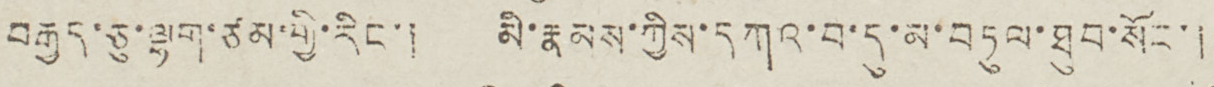བརྒྱད་ཅུ་ལྷག་ཙམ་གྱི་རིང་། མི་རྣམས་ཀྱིས་དཀའ་བ་དུ་མ་བཏུལ་ཐུབ་སོང་།
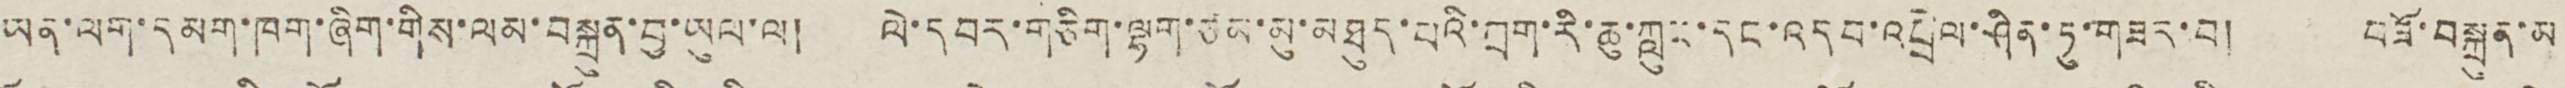ཡན་ལག་དམག་ཁག་ཞིག་གིས་ལམ་བསྐྲུན་བྱ་ཡུལ་ལ། ལེ་དབར་གཅིག་ལྷག་ཙམ་མུ་མཐུད་པའི་བྲག་རི་ཆུ་ཀླུང་དང་འདབ་འབྲེལ་ཤིན་ཏུ་གཟར་བ། བཟོ་བསྐྲུན་མ
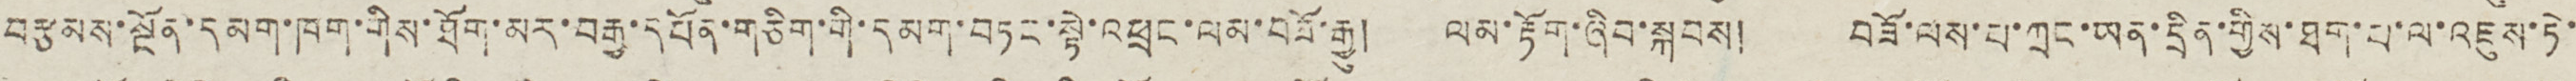བརྩམས་སྔོན་དམག་ཁག་གིས་ཐོག་མར་བརྒྱ་དཔོན་གཅིག་གི་དམག་བཏང་སྟེ་འཕྲང་ལམ་བཟོ་རྒྱུ། ལམ་རྟོག་ཞིབ་སྐབས། བཟོ་ལས་པ་ཀྲང་ཡན་དྲིན་གྱིས་ཐག་པ་ལ་འཇུས་ཏེ་
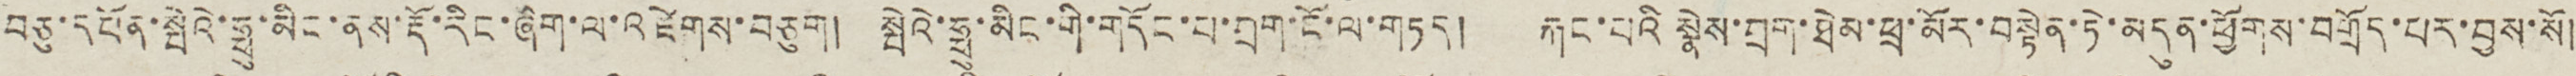བཅུ་དཔོན་སྤེའི་ཧྥུ་མིང་ནས་རྡོ་རིང་ཞིག་ལ་འཛེགས་བཅུག། སྤེའེ་ཧྥུ་མིང་གི་གདོང་པ་བྲག་ངོ་ལ་གཏད། རྐང་པའི སྣེས་བྲག་ཐེམ་ཕྲ་མོར་བསྟེན་ཏེ་མདུན་ཕྱོགས་བགྲོད་པར་བྱས་སོ།
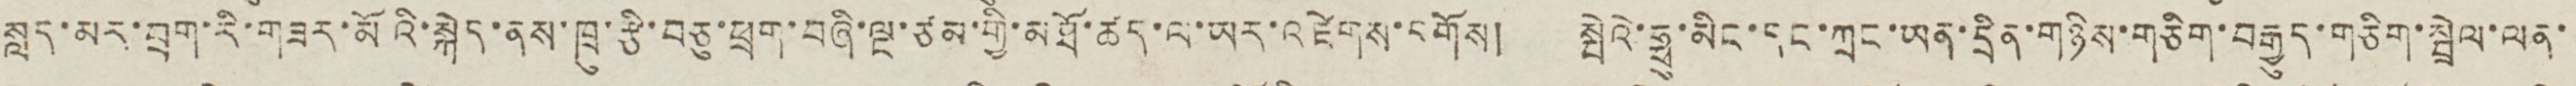སླད་མར་བྲག་རི་གཟེར་མོའི་སྐེད་ནས་ཁྲུ་རྩི་བཅུ་ཕྲག་བཞི་ལྔ་ཙམ་གྱི་མཐོ་ཚད་ལ་ཡར་འཛེགས་དགོས། སྤེའེ་ཧྥུ་མིང་དང་ཀྲང་ཡན་དྲིན་གཉིས་གཅིག་བརྒྱུད་གཅིག་སྦྲེལ་ལན་
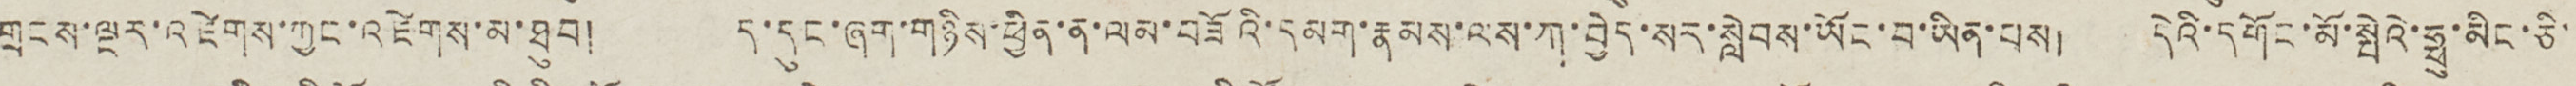གྲངས་ལྔར་འཛེགས་ཀྱང་འཛེགས་མ་ཐུབ། ད་དུང་ཞག་གཉིས་ཕྱིན་ན་ལམ་བཟོའི་དམག་རྣམས་ལས་ཀ་བྱེད་སར་སླེབས་ཡོང་བ་ཡིན་པས། དེའི་དགོང་མོ་སྤེའེ་ཧྥུ་མིང་ཅི་
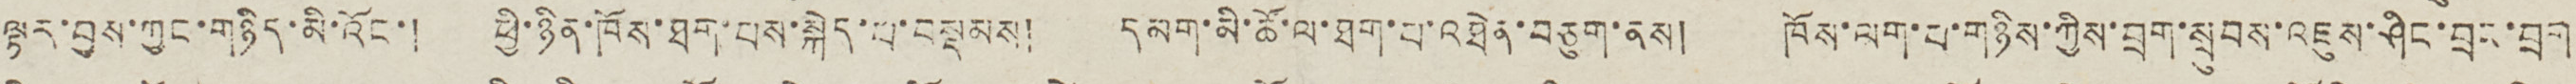ལྟར་བྱས་ཀྱང་གཉིད་མི་འོང་། ཕྱི་ཉིན་ཁོས་ཐག་པས་སྐེད་པ་བསྡམས། དམག་མི་ཚོ་ལ་ཐག་པ་འཐེན་བཅུག་ནས། ཁོས་ལག་པ་གཉིས་ཀྱིས་བྲག་སྲུབས་འཇུས་ཤིང་བྲང་བྲག
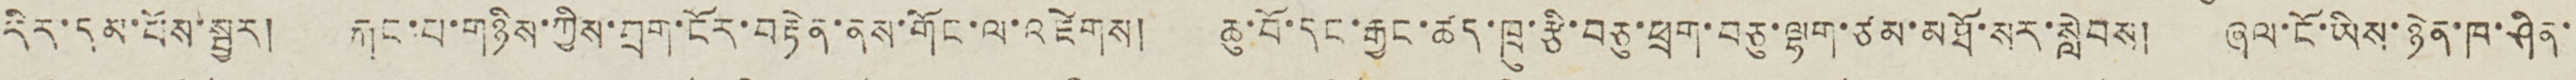དིར་དམ་པོས་སྦྱར། རྐང་པ་གཉིས་ཀྱིས་བྲག་ངོར་བརྟེན་ནས་གོང་ལ་འཛེགས། ཆུ་བོ་དང་རྒྱང་ཚད་ཁྲུ་རྩི་བཅུ་ཕྲག་བཅུ་ལྷག་ཙམ་མཐོ་སར་སླེབས། ཞལ་ངོ་ཡིས་ཉེན་ཁ་ཤིན་
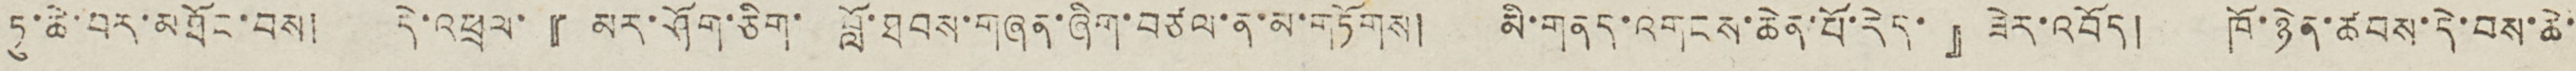ཏུ་ཆེ་བར་མཐོང་བས། དེ་འཕྲལ་『 མར་ཤོག་ཅིག་ བློ་ཐབས་གཞན་ཞིག་བཙལ་ན་མ་གཏོགས། མི་གནད་འགངས་ཆེན་པོ་རེད་ 』ཟེར་འབོད། ཁོ་ཉེན་ཚབས་དེ་བས་ཆེ་
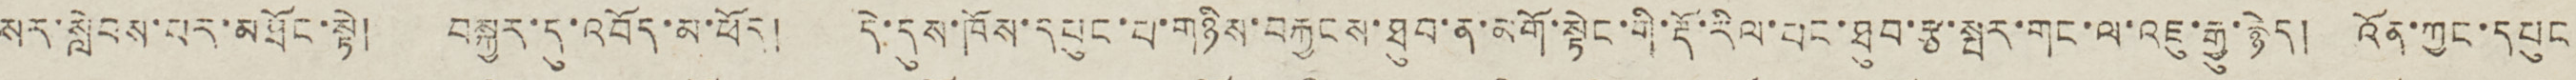སར་སླེབས་པར་མཐོང་སྟེ། བསྐྱར་དུ་འབོད་མ་ཕོད། དེ་དུས་ཁོས་དཔུང་པ་གཉིས་བརྐྱངས་ཐུབ་ན་མགོ་སྟེང་གི་རྡོ་རིལ་པང་ཐུབ་རྩ་སྤར་གང་ལ་འཇུ་རྒྱུ་རྙེད། འོན་ཀྱང་དཔུང
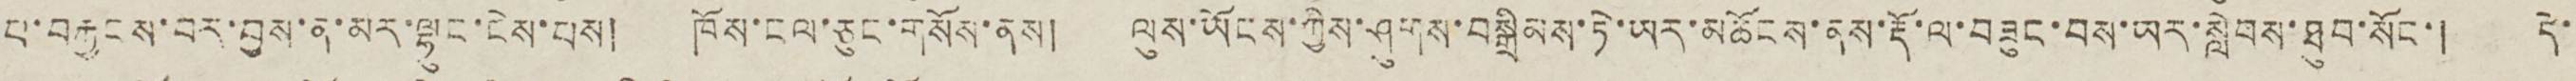པ་བརྐྱངས་བར་བྱས་ན་མར་ལྷུང་ངེས་པས། ཁོས་ངལ་ཅུང་གསོས་ནས། ལུས་ཡོངས་ཀྱིས་ཤུགས་བསྒྲིམས་ཏེ་ཡར་མཆོངས་ནས་རྡོ་ལ་བཟུང་བས་ཡར་སླེབས་ཐུབ་སོང་། དེ་
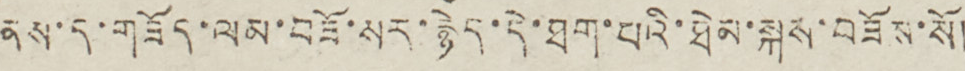ནས་ད་གཟོད་ལམ་བཟོ་སར་རྙེད་དེ་ཐག་པའི་ཐེམ་སྐས་བཟོས་སོ།
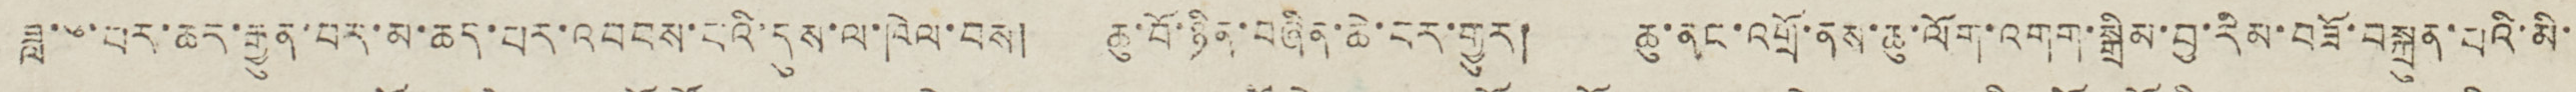ཟླ་༦་བར་ཆར་རྒྱུན་བར་མ་ཆད་པར་འབངས་པའི་དུས་ལ་ཁེལ་བས། ཆུ་བོ་ཉིན་བཞིན་ཆེ་བར་གྱུར། ཆུ་ནང་འགྲོ་ནས་ཆུ་ལོག་འགག་སྒྲིམ་བྱ་རིམ་བཟོ་བསྐྲུན་པའི་མི་
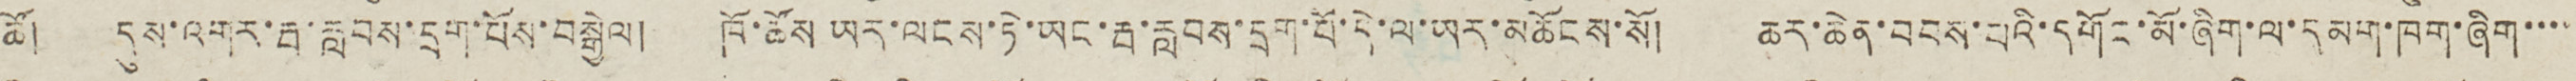ཚོ། དུས་འགར་རྦ་རླབས་དྲག་པོས་བསྒྱེལ། ཁོ་ཚོས ཡར་ལངས་ཏེ་ཡང་རྦ་རླབས་དྲག་པོ་དེ་ལ་ཡར་མཆོངས་སོ། ཆར་ཆེན་བབས་པའི་དགོང་མོ་ཞིག་ལ་དམག་ཁག་ཞིག་་་་
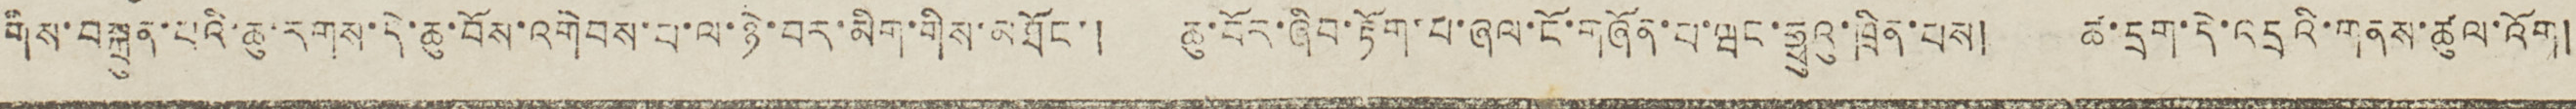གིས་བསྐྲུན་པའི་ཆུ་རགས་དེ་ཆུ་བོས་འགེབས་པ་ལ་ཉེ་བར་མིག་གིས་མཐོང་། ཆུ་བོར་ཞིབ་རྟོག་པ་ཞལ་ངོ་གཞོན་པ་ཝང་ཧྥུའུ་ཁྲིན་པས། ཚ་དྲག་དེ་འདྲའི་གནས་ཚུལ་འོག།
